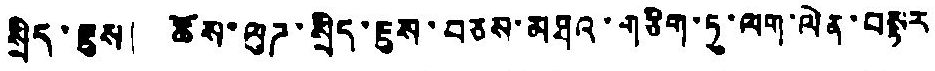སྲིད་ཇུས། ཆོས་ལུཌ་སྲིད་ཇུས་བཅས་མཐའ་གཅིག་ཏུ་ལག་ལེན་བསྟར
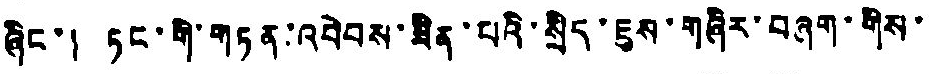ཞིང་། ཏང་གི་གཏན་འབེབས་ཟིན་པའི་སྲིད་ཇུས་གཞིར་བཞག་གིས་
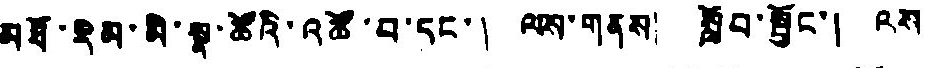མཐོ་རིམ་མི་སྣ་ཚོའི་འཚོ་བ་དང་། ལས་གནས། སློབ་སྦྱོང་། འས
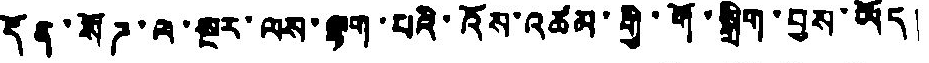དོན་སོཌ་ལ་སྔར་ལས་ལྷག་པའི་འོས་འཚམ་གོ་སྒྲིག་བྱས་ཡོད།
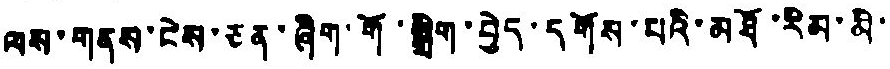ལས་གནས་ངེས་ཅན་ཞིག་གོ་སྒྲིག་བྱེད་དགོས་པའི་མཐོ་རིམ་མི་
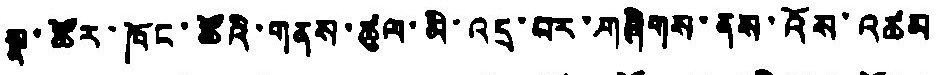སྣ་ཚོར་ཁོང་ཚོའི་གནས་ཚུལ་མི་འདྲ་བར་གཞིགས་ནས་འོས་འཚམ
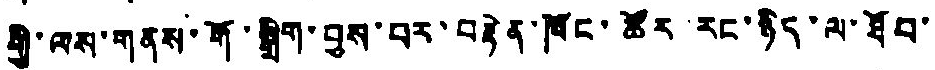གྱི་ལས་གནས་གོ་སྒྲིག་བྱས་པར་བརྟེན་ཁོང་ཚོར རང་ཉིད་ལ་ཐོབ་
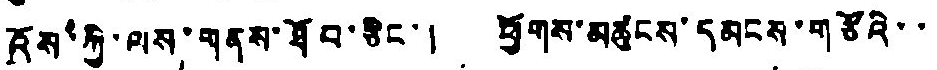འོས་ཀྱི་ལས་གནས་ཐོབ་ཅིང་། ཕྱོགས་མཚུངས་དམངས་གཙོའི་་
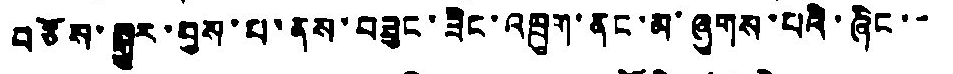བཅོས་སྒྱུར་བྱས་པ་ནས་བཟུང་ཟིང་འཁྲུག་ནང་མ་ཞུགས་པའི་ཞིང་་
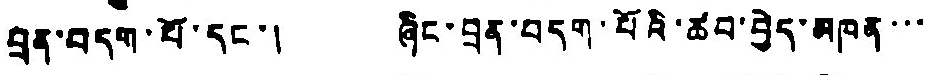བྲན་བདག་པོ་དང་། ཞིང་བྲན་བདག་པོའི་ཚབ་བྱེད་མཁན་་་
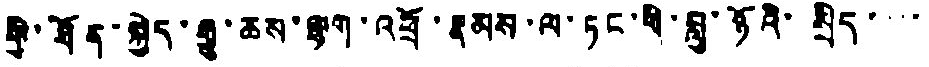གྱི་ཐོན་སྐྱེད་རྒྱུ་ཆས་ལྷག་འཕྲོ་རྣམས་ལ་ཏང་གི་བླུ་ཉོའི་ སྲིད་་་་
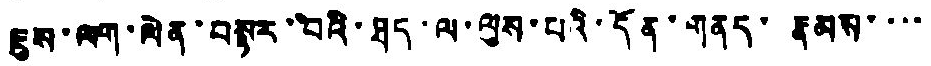ཇུས་ལག་ལེན་བསྟར་བའི་ཐད་ལ་ལུས་པའི་དོན་གནད་རྣམས་་་་
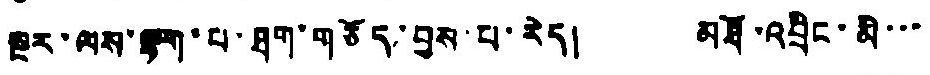སྔར་ལས་ལྷག་པ་ཐག་གཅོད་བྱས་པ་རེད། མཐོ་འབྲིང་མི་་་
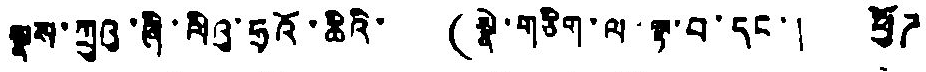སྣས་ཀྲུའུ་ཞི་ལིའུ་ཧྲའོ་ཆིའི་ (སྣེ་གཅིག་ལ་ལྟ་བ་དང་། ཕྱོཌ
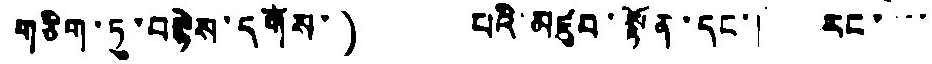གཅིག་ཏུ་བསྙེས་དགོས་) པའི་མཛུབ་སྟོན་དང་། རང་་་་
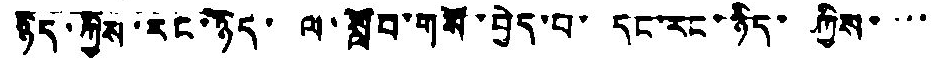ཉིད་ཀྱིས་རང་ཉིད་ ལ་སློབ་གསོ་བྱེད་པ་ དང་རང་ཉིད་ ཀྱིས་་་་
